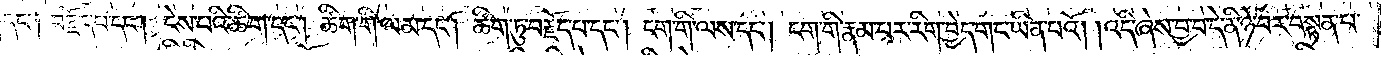དང་༑ བརྗོད་པ་དང༌། ངེས་པའི་ཚིག་དང༌། ཚིག་གི་ལམ་དང༌། ཚིག་ཏུ་བརྗོད་པ་དང༌། ངག་གི་ལས་དང༌། ངག་གི་རྣམ་པར་རིག་བྱེད་གང་ཡིན་པའོ། །འདི་ཞེས་བྱ་བ་དེ་ནི་ཉེ་བར་བསྟན་པ་
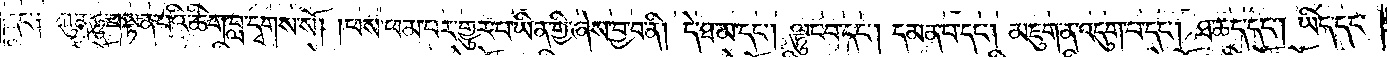དང་༑ ཀུན་ཏུ་བསྟན་པའི་ཚིག་བླ་དྭགས་སོ། །ཕས་ཕམ་པར་གྱུར་པ་ཡིན་གྱི་ཞེས་བྱ་བ་ནི། དེ་ཐ་མ་དང༌། ལྟུང་བ་དང༌། དམན་པ་དང༌། མཇུག་ན་འདུག་པ་དང༌། ཐ་ཆད་དང༌། ཡིད་དང་
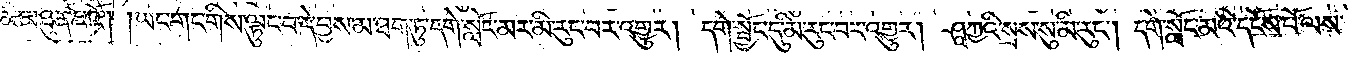མི་མཐུན་པའོ། །ཡང་གང་གིས་ལྟུང་བ་དེ་བྱས་མ་ཐག་ཏུ་དགེ་སློང་མར་མི་རུང་བར་འགྱུར། དགེ་སྦྱོང་དུ་མི་རུང་བར་འགྱུར། ཤཱཀྱའི་སྲས་སུ་མི་རུང༌། དགེ་སློང་མའི་དངོས་པོ་ལས་
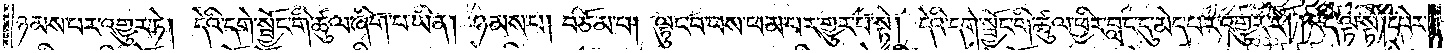ཉམས་པར་འགྱུར་ཏེ། དེའི་དགེ་སྦྱོང་གི་ཚུལ་ཞིག་པ་ཡིན། ཉམས་པ། བཅོམ་པ། ལྟུང་བ་ཕས་ཕམ་པར་གྱུར་པ་སྟེ། དེའི་དགེ་སྦྱོང་གི་ཚུལ་ཕྱིར་བླང་དུ་མེད་པར་འགྱུར་རོ། །འདི་ལྟ་སྟེ། དཔེར་
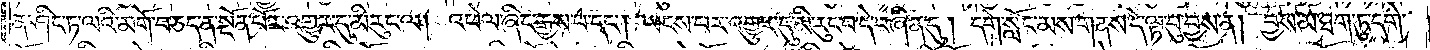ན་ཤིང་ཏ་ལའི་མགོ་བཅད་ན་སྔོན་པོར་འགྱུར་དུ་མི་རུང་ལ། འཕེལ་ཞིང་རྒྱས་པ་དང༌། ཡངས་པར་འགྱུར་དུ་མི་རུང་བ་དེ་བཞིན་དུ། དགེ་སློང་མས་གནས་དེ་ལྟ་བུ་བྱས་ན། བྱས་མ་ཐག་ཏུ་དགེ་
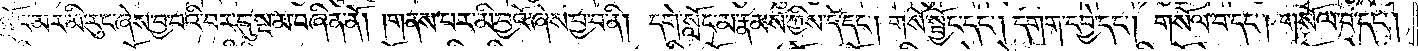སློང་མར་མི་རུང་ཞེས་བྱ་བའི་བར་དུ་སྔ་མ་བཞིན་ནོ། །གནས་པར་མི་བྱའོ་ཞེས་བྱ་བ་ནི། དགེ་སློང་མ་རྣམས་ཀྱིས་དེ་དང༌། གསོ་སྦྱོང་དང༌། དགག་དབྱེ་དང༌། གསོལ་བ་དང༌། གསོལ་བ་དང༌།
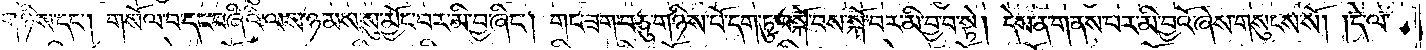གཉིས་དང༌། གསོལ་བ་དང་བཞིའི་ལས་ཉམས་སུ་མྱོང་བར་མི་བྱ་ཞིང༌། གང་ཟག་བཅུ་གཉིས་པོ་དག་ཏུ་བསྐོ་བས་སྐོ་བར་མི་བྱ་བ་སྟེ། དེས་ན་གནས་པར་མི་བྱའོ་ཞེས་གསུངས་སོ། །དེ་ལ་
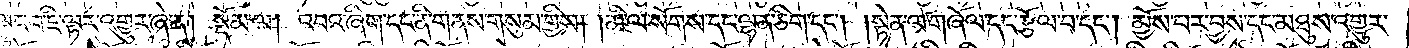ལྟུང་བ་ཇི་ལྟར་འགྱུར་ཞེ་ན། སྡོམ་ལ། འབའ་ཞིག་དང་ནི་གནས་གསུམ་གྱིས། །མི་ལ་སོགས་དང་ལྷན་ཅིག་དང༌། །སྟེན་ལ་གཞོལ་དང་རྩོལ་བ་དང༌། མྱོས་པར་བྱས་དང་མཐུས་འགྱུར་
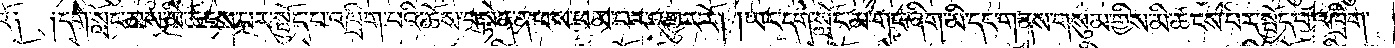བའོ། །དགེ་སློང་མས་མི་ཚངས་པར་སྤྱོད་པ་འཁྲིག་པའི་ཆོས་བསྟེན་ན་ཕས་ཕམ་པར་འགྱུར་རོ། །ཡང་དགེ་སློང་མ་གང་ཞིག་མི་དང་གནས་གསུམ་གྱིས་མི་ཚངས་པར་སྤྱོད་པ་འཁྲིག་
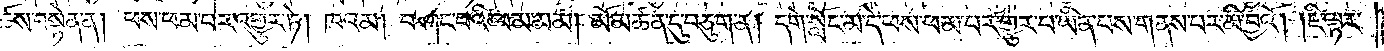ཆོས་བསྟེན་ན། ཕས་ཕམ་པར་འགྱུར་ཏེ། ཁའམ། བཤང་བའི་ལམ་མམ། མོ་མཚན་དུ་བཅུག་ན། དགེ་སློང་མ་དེ་ཕས་ཕམ་པར་གྱུར་པ་ཡིན་པས་གནས་པར་མི་བྱའོ། །ཇི་ལྟར་
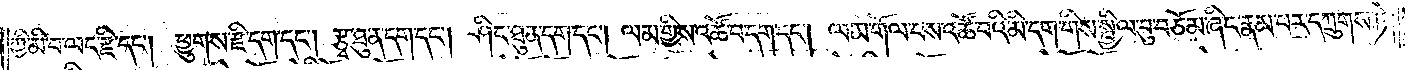ཀྱི་མི་བ་ལང་རྫི་དང༌། ཕྱུགས་རྫི་དག་དང༌། རྩྭ་ཐུན་དག་དང༌། ཤིང་ཐུན་དག་དང༌། ལམ་གྱིས་འཚོ་བ་དག་དང༌། ལམ་གོལ་བས་འཚོ་བའི་མི་དག་གིས་སྤྱིལ་བུ་བཅོམ་ཞིང་རྣམ་པར་དཀྲུགས་ཏེ།
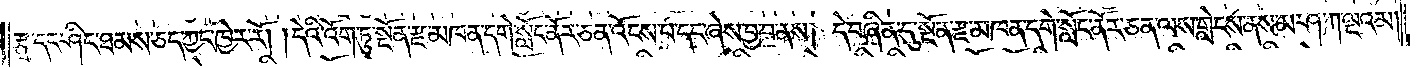རྩྭ་དང་ཤིང་ཐམས་ཅད་ཀྱང་ཁྱེར་རོ། །དེའི་འོག་ཏུ་སྔོན་རྫ་མཁན་དགེ་སློང་ནོར་ཅན་འོངས་པ་དང་ཞེས་བྱ་བ་ནས། དེ་བཞིན་དུ་སྔོན་རྫ་མཁན་དགེ་སློང་ནོར་ཅན་ལས་གླེངས་ནས་མ་ཤ་ཀ་ལྔའམ་
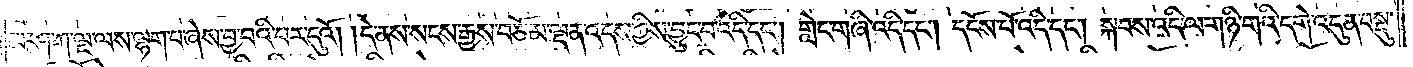མ་ཤ་ཀ་ལྔ་ལས་ལྷག་པ་ཞེས་བྱ་བའི་བར་དུའོ། །དེ་ནས་སངས་རྒྱས་བཅོམ་ལྡན་འདས་ཀྱིས་བྱུང་བ་འདི་དང༌། གླེང་གཞི་འདི་དང༌། དངོས་པོ་འདི་དང༌། སྐབས་འདི་ལ་གཉི་གའི་དགེ་འདུན་བསྡུ་
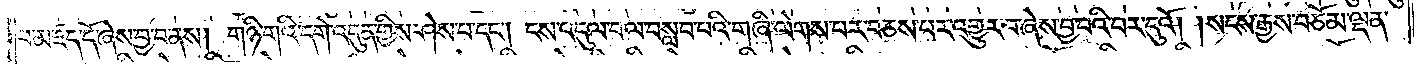བ་མཛད་དོ་ཞེས་བྱ་བ་ནས། གཉི་གའི་དགེ་འདུན་གྱིས་ཤེས་པ་དང༌། ངས་འདུལ་བ་ལ་བསླབ་པའི་གཞི་ལེགས་པར་བཅས་པར་འགྱུར་བ་ཞེས་བྱ་བའི་བར་དུའོ། །སངས་རྒྱས་བཅོམ་ལྡན་
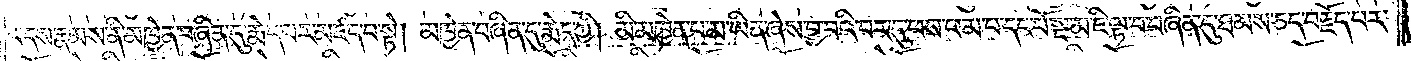འདས་རྣམས་ནི་མཁྱེན་བཞིན་དུ་རྨེད་པར་མཛད་པ་སྟེ། མཁྱེན་བཞིན་དུ་རྨེད་ཀྱི། མི་མཁྱེན་པ་མ་ཡིན་ཞེས་བྱ་བའི་བར་དུ་ཕས་ཕམ་པ་དང་པོ་སྔ་མ་ཇི་ལྟ་བ་བཞིན་དུ་ཐམས་ཅད་བརྗོད་པར་
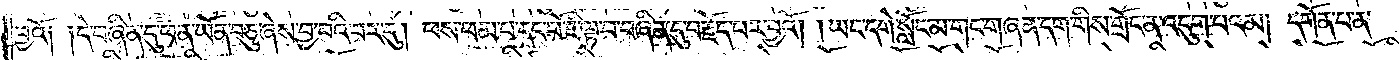བྱའོ༑ ༑དེ་བཞིན་དུ་ཕན་ཡོན་བཅུ་ཞེས་བྱ་བའི་བར་དུ། ཕས་ཕམ་པ་དང་པོ་ཇི་ལྟ་བ་བཞིན་དུ་བརྗོད་པར་བྱའོ། །ཡང་དགེ་སློང་མ་གང་གཞན་དག་གིས་གྲོང་ན་འདུག་པའམ། དགོན་པ་ན་
